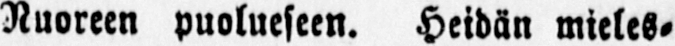Nuoreen puolueseen. Heidän mieles-
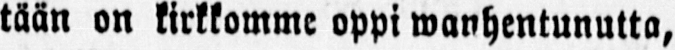tään on kirkkomme oppi wanhentunutta,
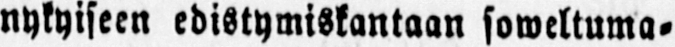nykyiseen edistymiskantaan soweltuma-
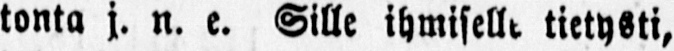tonta j. n. e. Sille ihmiselle tietysti,
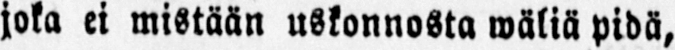joka ei mistään uskonnosta wäliä pidä,
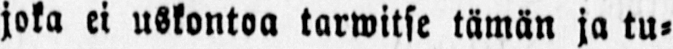joka ei uskontoa tarwitse tämän ja tu-
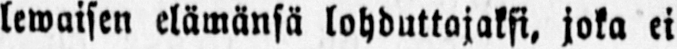lewaisen elämänsä lohduttajaksi, joka ei
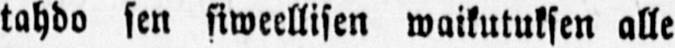tahdo sen siweellisen waikutuksen alle
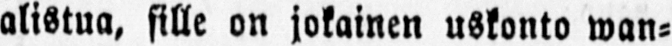alistua, sille on jokainen uskonto wan-
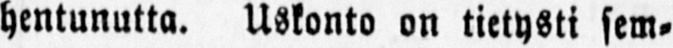hentunutta. Uskonto on tietysti sem-
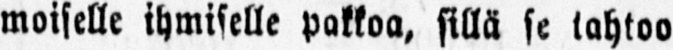moiselle ihmiselle pakkoa, sillä se tahtoo
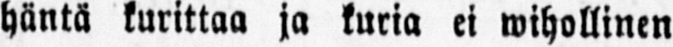häntä kurittaa ja kuria ei wihollinen
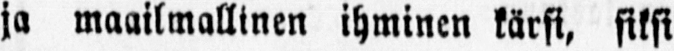ja maailmallinen ihminen kärsi, siksi
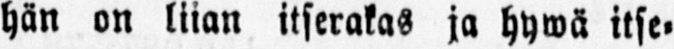hän on liian itserakas ja hywä itse-
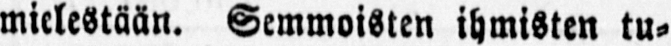mielestään. Semmoisten ihmisten tu-
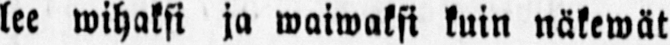lee wihaksi ja waiwaksi kuin näkewät
